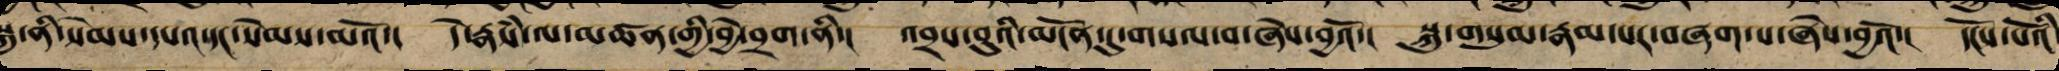སྐུ་ནི་སེམས་དཔའ་དང་སེམས་མའོ་། དེ་རྣཾས་ལ་མཚན་གྱི་བྱེ་བྲག་ནི་། འབྲས་བུའི་མངོན་དུ་གསལ་བ་ཞེས་བྱའོ་། སྐུ་གསུམ་རྣམ་པར་བཞག་པ་ཞེས་བྱའོ་། དངོས་པོའི་
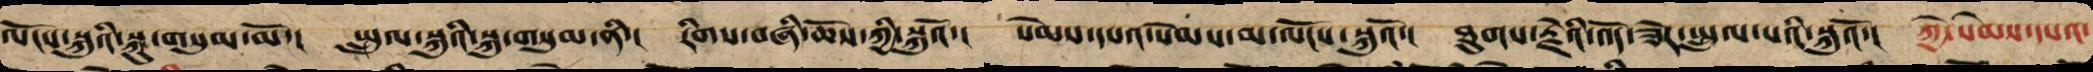ལོངས་སྐུའི་སྐུ་གསུམ་མོ་། སྤྲུལ་སྐུའི་སྐུ་གསུམ་ནི་། རིགས་བཞི་ཆོས་ཀྱི་སྐུའོ་། སེམས་དཔའ་སེམས་མ་ལོངས་སྐུའོ་། ཐུགས་རྗེའི་འོད་ཟེར་སྤྲུལ་པའི་སྐུའོ་། ཀྱེ་སེམས་དཔའ་
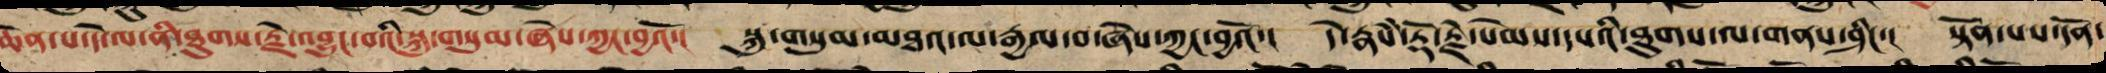ཆེན་པོ་དེ་ལ་ནི་ཐུགས་རྗེ་འབྱུང་བའི་སྐུ་གསུམ་ཞེས་ཀྱང་བྱའོ་། སྐུ་གསུམ་མཐའ་ལ་རྒྱལ་བ་ཞེས་ཀྱང་བྱའོ་། དེ་རྣཾས་རྡོ་རྗེ་སེམས་དཔའི་ཐུགས་ལ་གནས་ཤིང་། སྟོན་པས་དོན་
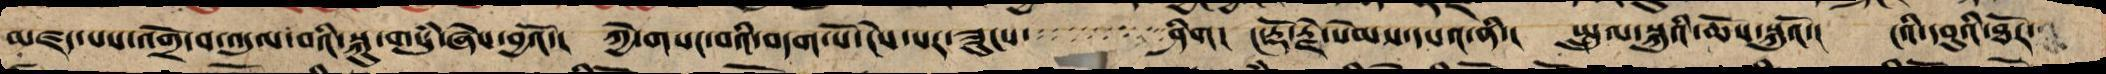མཛད་པས་འགྲོ་བ་འདུལ་བའི་སྐུ་གསུཾ་ཞེས་བྱའོ་། ཀྱེ་གསང་བའི་བདག་པོ་ངེས་པར་ཟུངས་་་་་་་ཤིག། ང་རྡོ་རྗེ་སེམས་དཔའ་ནི་། སྤྲུལ་སྐུའི་ཆོས་སྐུའོ་། ངའི་དབུའི་ཐོར་
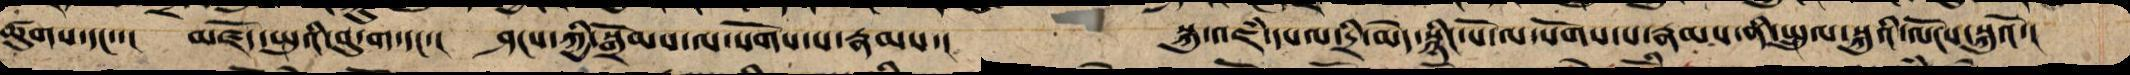ཚུགས་དང་་། མཛོད་སྤུའི་བུ་ག་དང་། ཤངས་ཀྱི་སྒྲོམས་ལ་སོགས་པ་རྣམས་། སྐུ་འཇཾ་དཔལ་དྲི་མེད་སྙིང་པོ་ལ་སོགས་པ་རྣམས་ནི་སྤྲུལ་སྐུའི་ལོངས་སྐུའོ་།
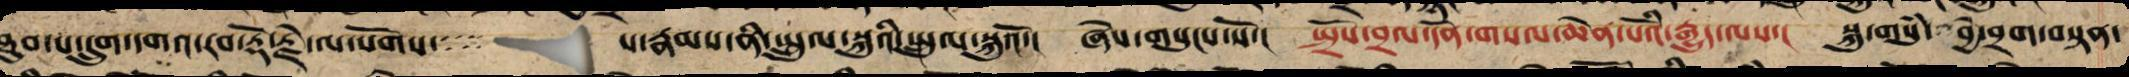ཐུབ་པ་དྲུག་དགའ་རབ་རྡོ་རྗེ་ལ་སོགས་་་་ པ་རྣམས་ནི་སྤྲུལ་སྐུའི་སྤྲུལ་སྐུའོ་། ཞེས་གསུངས་སོ་། སྤྲོས་བྲལ་དོན་གསལ་ཆེན་པོའི་རྒྱུད་ལས་། སྐུ་གསུཾ་ བྱེ་བྲག་བསྟན་
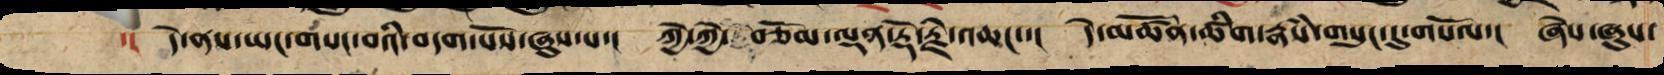་། དེ་ནས་ཡང་གསང་བའི་བདག་པོས་ཞུས་པ་། ཀྱེ་ཀྱེ་ བཅོམ་ལྡན་རྡོ་རྗེ་འཆང་་། དེ་མཚོན་ཚིག་རྣཾས་གསུང་དུ་གསོལ་། ཞེས་ཞུས་
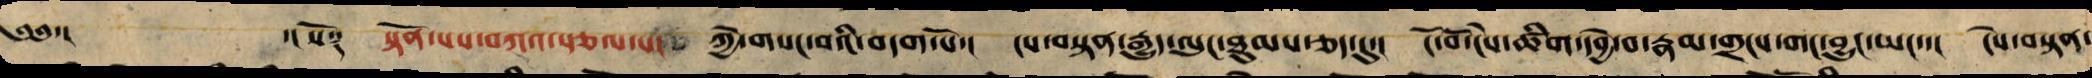༄༅་། ་། སོ༑ སྟོན་པས་བཀའ་སྩལ་པ། ཀྱེ་གསང་བའི་བདག་པོ་། ངས་བསྟན་རྒྱུད་ལུང་ཐམས་ཅད་དུ་། ངོ་བོ་ངེས་ཚིག་དབྱེ་བ་རྣམ་གྲངས་གང་བྱུང་ཡང་་། ངེས་བསྟན་
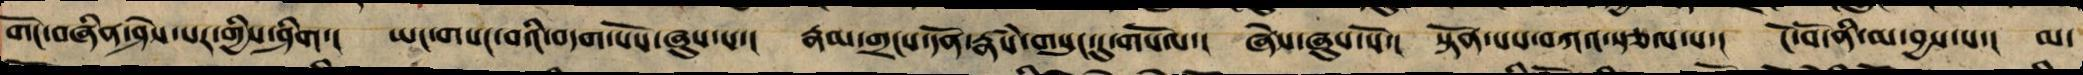གོང་བཞིན་ཤེས་པར་གྱིས་ཤིག་། ཡང་གསང་བའི་བདག་པོས་ཞུས་པ་། རྣམ་གྲངས་དོན་རྣཾས་གསུང་དུ་གསོལ་། ཞེས་ཞུས་སོ་། སྟོན་པས་བཀའ་སྩལ་པ་། ངོ་བོ་ནི་མ་བྱས་པ་། མ་
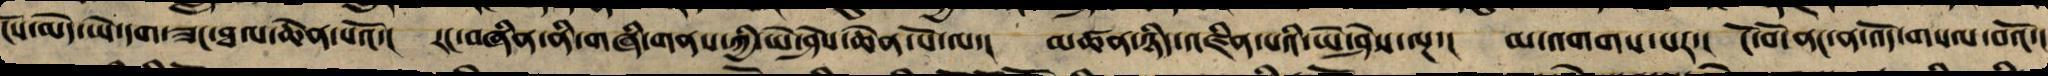ངོས་མེད་ཡེ་དག་ཟང་ཐལ་ཆེན་པའོ་། རང་བཞིན་ནི་གཞི་གནས་ཀྱི་ཡེ་ཤེས་ཆེན་པོ་ལ་། མཚན་ཉིད་འཛིན་པའི་ཡེ་ཤེས་ལྔ་། མ་འགགས་པར་། ངོ་བོ་ནང་ན་འོད་གསལ་བའོ་།
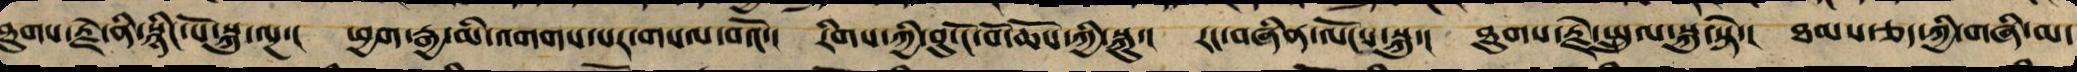ཐུགས་རྗེ་ནི་སྙིང་པོ་སྐུ་ལྔ་། ཕྱག་རྒྱ་མི་འགག་པར་གསལ་བའོ་། རིགས་ཀྱི་བུ་ངོ་བོ་ཆོས་ཀྱི་སྐུ་། རང་བཞིན་ལོངས་སྐུ་། ཐུགས་རྗེ་སྤྲུལ་སྐུ་སྟེ་། ཐམས་ཅད་ཀྱི་གཞི་མ་
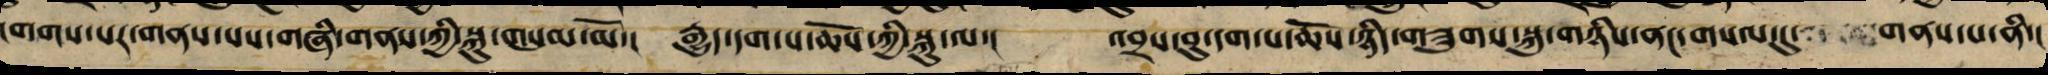གགས་པར་གནས་པས་གཞི་གནས་ཀྱི་སྐུ་གསུམ་མོ་། རྒྱུད་དག་པ་ཆོས་ཀྱི་སྐུ་ལ་། འབྲས་བུ་དག་པ་ཆོས་ཉིད་གཟུགས་སྐུ་གཉིས་ནང་གསལ་དུ་ གནས་པ་ནི་།
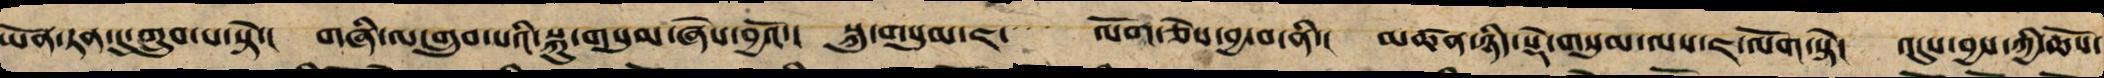ཡོན་ཏན་དུ་གྲུབ་པ་སྟེ་། གཞི་ལ་གྲུབ་པའི་སྐུ་གསུམ་ཞེས་བྱའོ་། སྐུ་གསུམ་ཇ་ ལོག་ཅེས་བྱ་བ་ནི་། མཚན་ཉིད་སྡེ་གསུམ་ལས་ཇ་ལོག་སྟེ། འདུས་བྱས་ཀྱི་ཆོས་
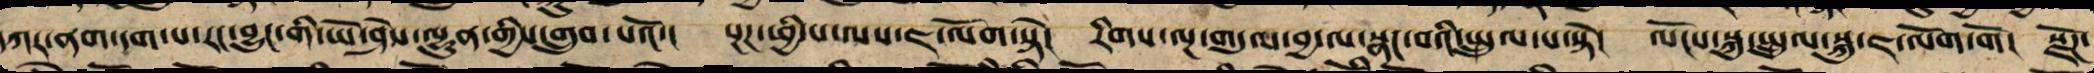དཀར་ནག་དག་པ་རང་བྱུང་གི་ཡེ་ཤེས་ལྷུན་གྱིས་གྲུབ་པའོ་། སྔཌ་ཕྱི་པ་ལས་ཇ་ལོག་སྟེ། རིགས་ལྔ་གདུལ་བྱ་ལ་སྣང་བའི་སྤྲུལ་པ་སྟེ། ལོངས་སྐུ་ལ་སྤྲུལ་སྐུ་ཇ་ལོག་གོ། སྫོཌ་
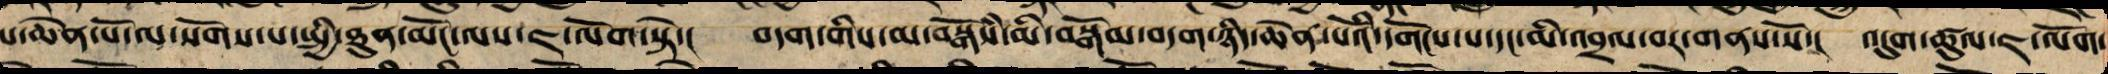པ་ཆེན་པོ་ལ་སོགས་པ་སྤྱི་ཐུན་མོང་ལས་ཇ་ལོག་སྟེ་། བདག་གིས་མ་བསྒོཾས་མི་བསྒོམ་བདག་ཉིད་ཆེན་པོའི་དགོངས་པ་དང་མི་འབྲལ་བར་གནས་སོ་། འདུག་ཚུལ་ཇ་ལོག་
